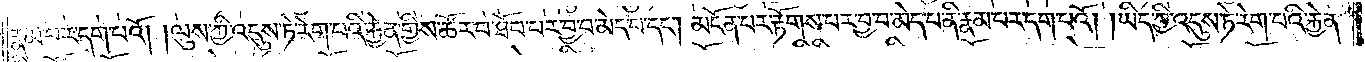རྣམ་པར་དག་པའོ། །ལུས་ཀྱི་འདུས་ཏེ་རེག་པའི་རྐྱེན་གྱིས་ཚོར་བ་ཐོབ་པར་བྱ་བ་མེད་པ་དང༌། མངོན་པར་རྟོགས་པར་བྱ་བ་མེད་པ་ནི་རྣམ་པར་དག་པའོ། །ཡིད་ཀྱི་འདུས་ཏེ་རེག་པའི་རྐྱེན་
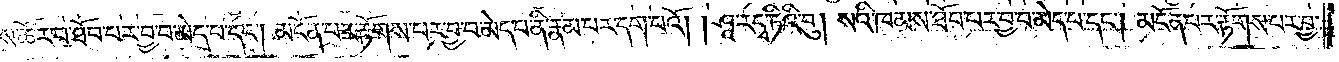གྱིས་ཚོར་བ་ཐོབ་པར་བྱ་བ་མེད་པ་དང༌། མངོན་པར་རྟོགས་པར་བྱ་བ་མེད་པ་ནི་རྣམ་པར་དག་པའོ། །ཤཱ་ར་དྭ་ཏིའི་བུ། སའི་ཁམས་ཐོབ་པར་བྱ་བ་མེད་པ་དང༌། མངོན་པར་རྟོགས་པར་བྱ་
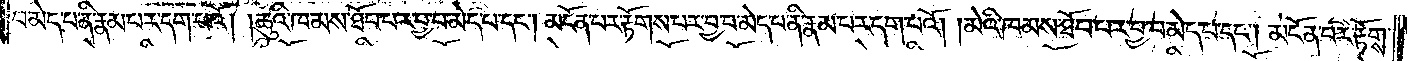བ་མེད་པ་ནི་རྣམ་པར་དག་པའོ། །ཆུའི་ཁམས་ཐོབ་པར་བྱ་བ་མེད་པ་དང༌། མངོན་པར་རྟོགས་པར་བྱ་བ་མེད་པ་ནི་རྣམ་པར་དག་པའོ། །མེའི་ཁམས་ཐོབ་པར་བྱ་བ་མེད་པ་དང༌། མངོན་པར་རྟོགས་
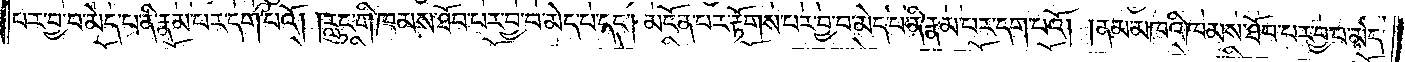པར་བྱ་བ་མེད་པ་ནི་རྣམ་པར་དག་པའོ། །རླུང་གི་ཁམས་ཐོབ་པར་བྱ་བ་མེད་པ་དང༌། མངོན་པར་རྟོགས་པར་བྱ་བ་མེད་པ་ནི་རྣམ་པར་དག་པའོ། །ནམ་མཁའི་ཁམས་ཐོབ་པར་བྱ་བ་མེད་
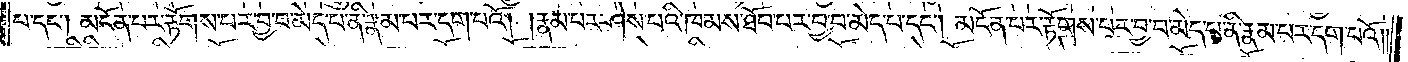པ་དང༌། མངོན་པར་རྟོགས་པར་བྱ་བ་མེད་པ་ནི་རྣམ་པར་དག་པའོ། །རྣམ་པར་ཤེས་པའི་ཁམས་ཐོབ་པར་བྱ་བ་མེད་པ་དང༌། མངོན་པར་རྟོགས་པར་བྱ་བ་མེད་པ་ནི་རྣམ་པར་དག་པའོ། །
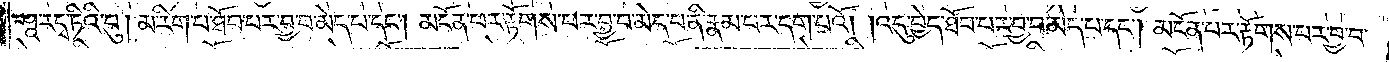ཤཱ་རདྭ་ཏིའི་བུ། མ་རིག་པ་ཐོབ་པར་བྱ་བ་མེད་པ་དང༌། མངོན་པར་རྟོགས་པར་བྱ་བ་མེད་པ་ནི་རྣམ་པར་དག་པའོ། །འདུ་བྱེད་ཐོབ་པར་བྱ་བ་མེད་པ་དང༌། མངོན་པར་རྟོགས་པར་བྱ་བ་
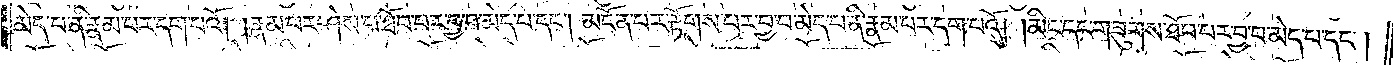མེད་པ་ནི་རྣམ་པར་དག་པའོ། །རྣམ་པར་ཤེས་པ་ཐོབ་པར་བྱ་བ་མེད་པ་དང༌། མངོན་པར་རྟོགས་པར་བྱ་བ་མེད་པ་ནི་རྣམ་པར་དག་པའོ། །མིང་དང་གཟུགས་ཐོབ་པར་བྱ་བ་མེད་པ་དང༌།
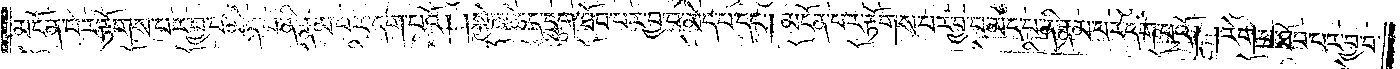མངོན་པར་རྟོགས་པར་བྱ་བ་མེད་པ་ནི་རྣམ་པར་དག་པའོ། །སྐྱེ་མཆེད་དྲུག་ཐོབ་པར་བྱ་བ་མེད་པ་དང༌། མངོན་པར་རྟོགས་པར་བྱ་བ་མེད་པ་ནི་རྣམ་པར་དག་པའོ། །རེག་པ་ཐོབ་པར་བྱ་བ་
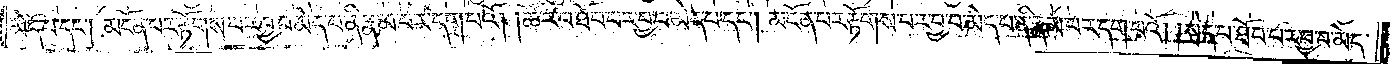མེད་པ་དང༌། མངོན་པར་རྟོགས་པར་བྱ་བ་མེད་པ་ནི་རྣམ་པར་དག་པའོ། །ཚོར་བ་ཐོབ་པར་བྱ་བ་མེད་པ་དང༌། མངོན་པར་རྟོགས་པར་བྱ་བ་མེད་པ་ནི་རྣམ་པར་དག་པའོ། །སྲེད་པ་ཐོབ་པར་བྱ་བ་མེད་
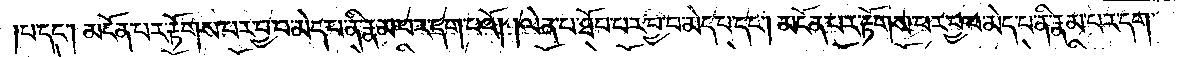པ་དང༌། མངོན་པར་རྟོགས་པར་བྱ་བ་མེད་པ་ནི་རྣམ་པར་དག་པའོ། །ལེན་པ་ཐོབ་པར་བྱ་བ་མེད་པ་དང༌། མངོན་པར་རྟོགས་པར་བྱ་བ་མེད་པ་ནི་རྣམ་པར་དག་
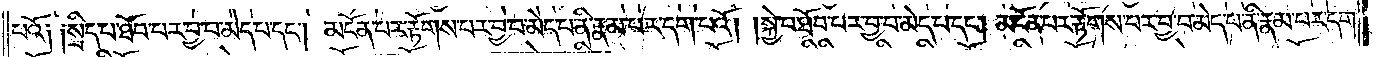པའོ༑ ༑སྲིད་པ་ཐོབ་པར་བྱ་བ་མེད་པ་དང༌། མངོན་པར་རྟོགས་པར་བྱ་བ་མེད་པ་ནི་རྣམ་པར་དག་པའོ། །སྐྱེ་བ་ཐོབ་པར་བྱ་བ་མེད་པ་དང༌། མངོན་པར་རྟོགས་པར་བྱ་བ་མེད་པ་ནི་རྣམ་པར་དག་
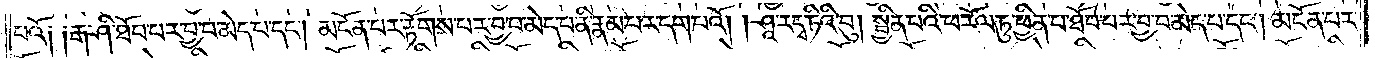པའོ༑ ༑རྒ་ཤི་ཐོབ་པར་བྱ་བ་མེད་པ་དང༌། མངོན་པར་རྟོགས་པར་བྱ་བ་མེད་པ་ནི་རྣམ་པར་དག་པའོ། །ཤཱ་རདྭ་ཏིའི་བུ། སྦྱིན་པའི་ཕ་རོལ་ཏུ་ཕྱིན་པ་ཐོབ་པར་བྱ་བ་མེད་པ་དང༌། མངོན་པར་
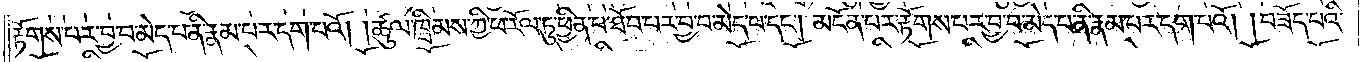རྟོགས་པར་བྱ་བ་མེད་པ་ནི་རྣམ་པར་དག་པའོ། །ཚུལ་ཁྲིམས་ཀྱི་ཕ་རོལ་ཏུ་ཕྱིན་པ་ཐོབ་པར་བྱ་བ་མེད་པ་དང༌། མངོན་པར་རྟོགས་པར་བྱ་བ་མེད་པ་ནི་རྣམ་པར་དག་པའོ། །བཟོད་པའི་
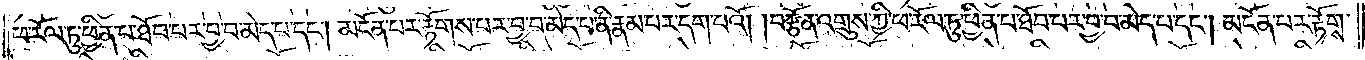ཕ་རོལ་ཏུ་ཕྱིན་པ་ཐོབ་པར་བྱ་བ་མེད་པ་དང༌། མངོན་པར་རྟོགས་པར་བྱ་བ་མེད་པ་ནི་རྣམ་པར་དག་པའོ། །བརྩོན་འགྲུས་ཀྱི་ཕ་རོལ་ཏུ་ཕྱིན་པ་ཐོབ་པར་བྱ་བ་མེད་པ་དང༌། མངོན་པར་རྟོགས་
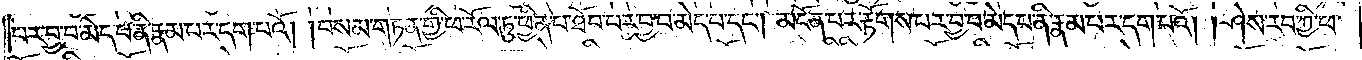པར་བྱ་བ་མེད་པ་ནི་རྣམ་པར་དག་པའོ། །བསམ་གཏན་གྱི་ཕ་རོལ་ཏུ་ཕྱིན་པ་ཐོབ་པར་བྱ་བ་མེད་པ་དང༌། མངོན་པར་རྟོགས་པར་བྱ་བ་མེད་པ་ནི་རྣམ་པར་དག་པའོ། །ཤེས་རབ་ཀྱི་ཕ་
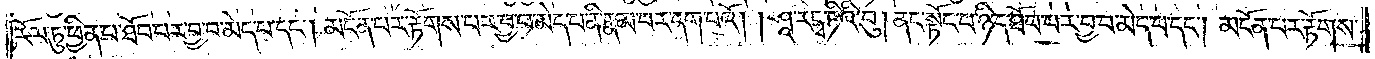རོལ་ཏུ་ཕྱིན་པ་ཐོབ་པར་བྱ་བ་མེད་པ་དང༌། མངོན་པར་རྟོགས་པར་བྱ་བ་མེད་པ་ནི་རྣམ་པར་དག་པའོ། །ཤཱ་ར་དྭ་ཏིའི་བུ། ནང་སྟོང་པ་ཉིད་ཐོབ་པར་བྱ་བ་མེད་པ་དང༌། མངོན་པར་རྟོགས་
